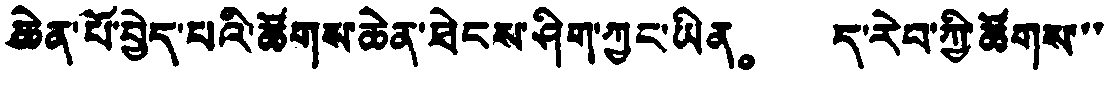ཆེན་པོ་བྱེད་པའི་ཚོགས་ཆེན་ཐེངས་ཤིག་ཀྱང་ཡིན。 ད་རེབ་ཀྱི་ཚོགས་་་
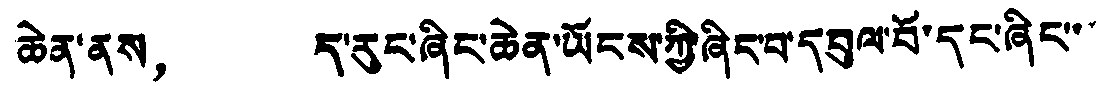ཆེན་ནས， ད་རུང་ཞིང་ཆེན་ཡོངས་ཀྱི་ཞིང་པ་དབུལ་བོ་དང་ཞིང་་་
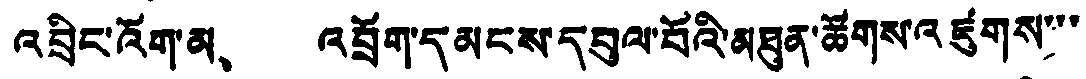འབྲིང་འོག་མ、 འབྲོག་དམངས་དབུལ་བོའི་མཐུན་ཚོགས་འཛུགས་་་
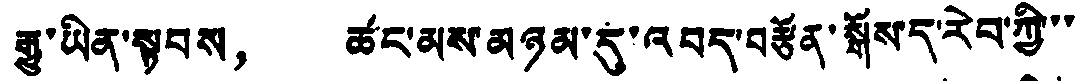རྒྱུ་ཡིན་སྟབས， ཚང་མས་མཉམ་དུ་འབད་བརྩོན་སྒོས་ད་རེབ་ཀྱི་་་
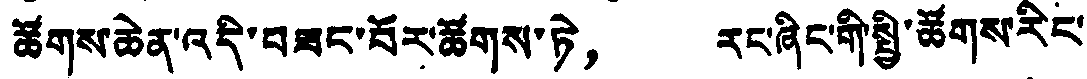ཚོགས་ཆེན་འདི་བཟང་པོར་ཚོགས་ཏེ， རང་ཞིང་གི་སྤྱི་ཚོགས་རིང་
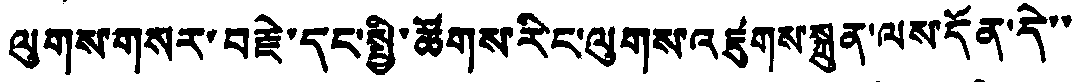ལུགས་གསར་བརྗེ་དང་སྤྱི་ཚོགས་རིང་ལུགས་འཛུགས་སྐྲུན་ལས་དོན་དེ་་
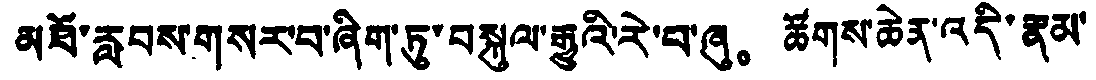མཐོ་རླབས་གསར་བ་ཞིག་ཏུ་བསྐུལ་རྒྱུའི་རེ་བ་ཞུ。 ཚོགས་ཆེན་འདི་རྣམ་
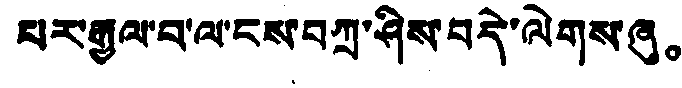པར་རྒྱལ་བ་ལ་ངས་བཀྲ་ཤིས་བདེ་ལེགས་ཞུ。
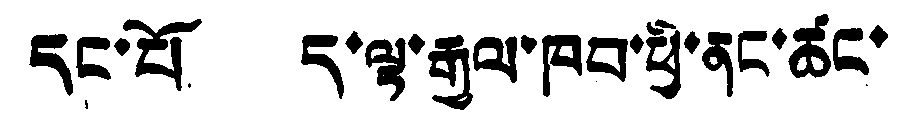དང་པོ ད་ལྟ་རྒྱལ་ཁབ་ཕྱི་ནང་ཚང་
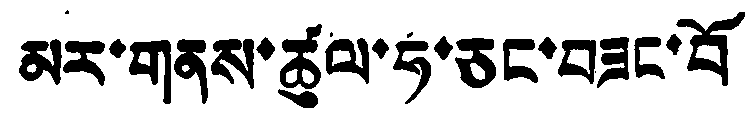མར་གནས་ཚུལ་ཧ་ཅང་བཟང་པོ
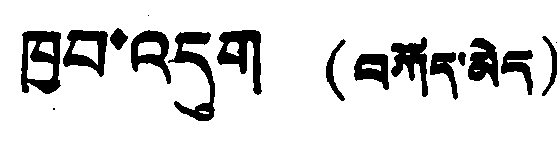ཁྱབ་འདུག (བཀོད་མེད)
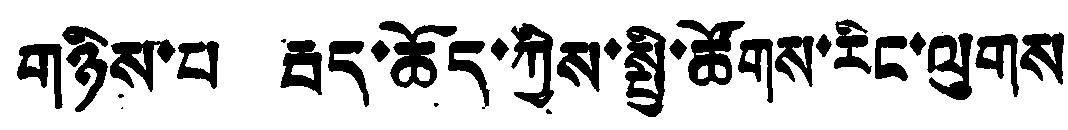གཉིས་པ རྦད་ཆོད་ཀྱིས་སྤྱི་ཚོགས་རིང་ལུགས
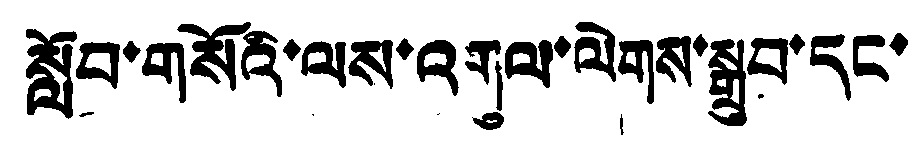སློབ་གསོའི་ལས་འགུལ་ལེགས་སྒྲུབ་དང་
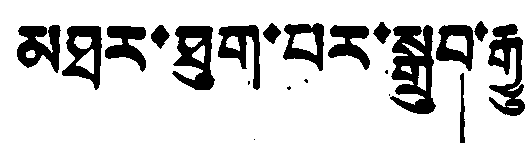མཐར་ཐུག་པར་སྒྲུབ་རྒྱུ།
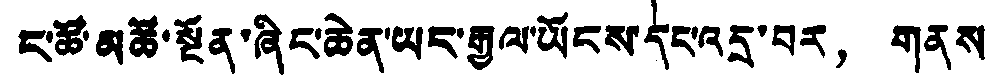ང་ཚོ་མཚོ་སྔོན་ཞིང་ཆེན་ཡང་རྒྱལ་ཡོངས་དང་འདྲ་བར， གནས་
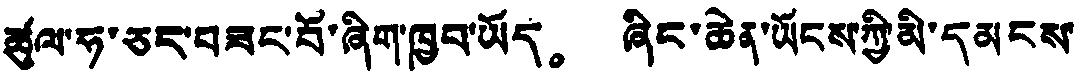ཚུལ་ཧ་ཅང་བཟང་བོ་ཞིག་ཁྱབ་ཡོད。 ཞིང་ཆེན་ཡོངས་ཀྱི་མི་དམངས་
